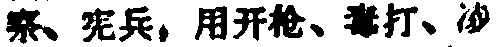察、宪兵，用开枪、毒打、凌
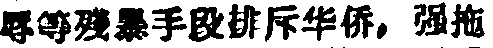辱等殘暴手段排斥华侨，强拖
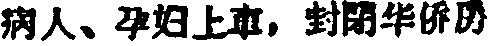病人、孕妇上車，封閉华侨房
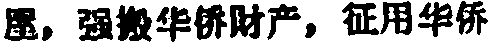屋，强搬华侨財产，征用华侨
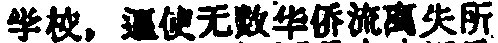学校，逼使无数华侨流离失所
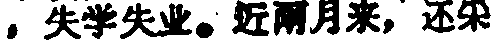，失学失业。近兩月来，还采
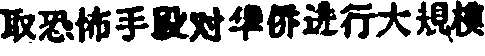取恐怖手段对华侨进行大規模
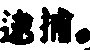逮捕。
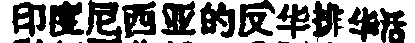印度尼西亚的反华排华活
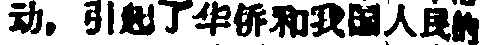动，引起了华侨和我国人民的
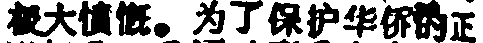极大愤慨。为了保护华侨的正
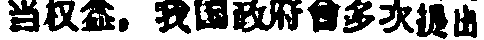当权益，我国政府曾多次提出
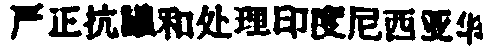严正抗議和处理印度尼西亚华
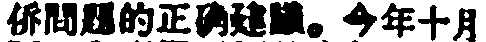侨問題的正确建議。今年十月
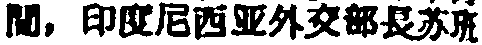間，印度尼西亚外交部長苏班
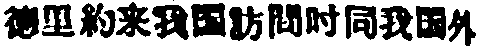德里約来我国訪問时同我国外
